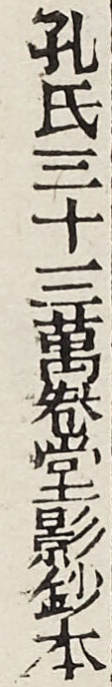孔氏三十三萬卷堂影鈔本
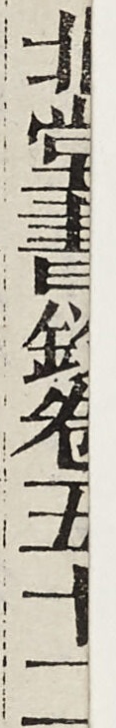北堂書鈔卷第五十二
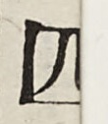四
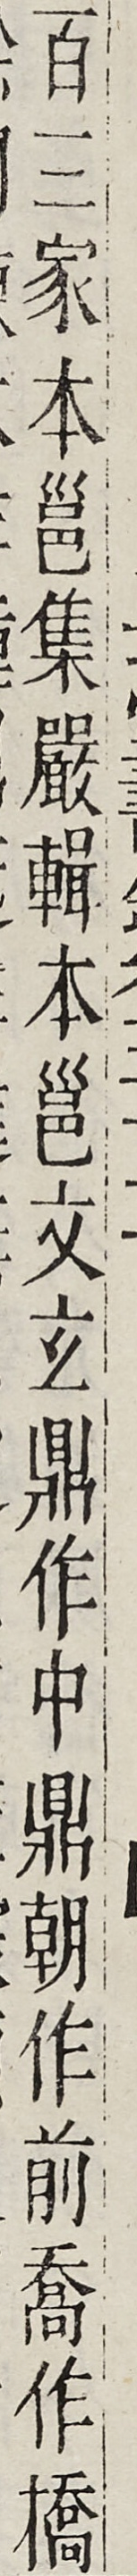百三家本邕集嚴輯本邕文玄鼎作中鼎朝作前喬作橋
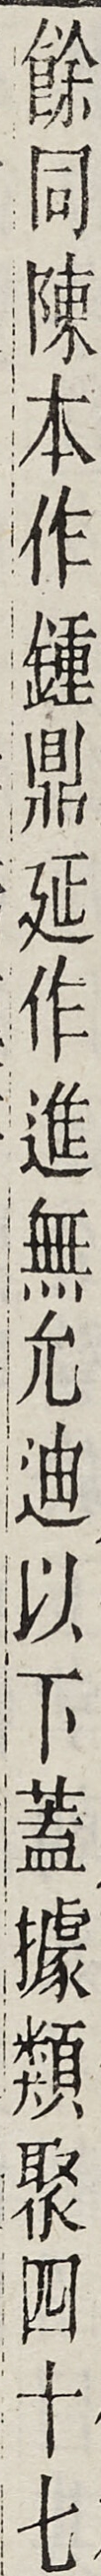餘同陳本作鍾鼎延作進無允迪以下蓋據類聚四十七
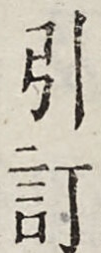引訂
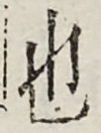也
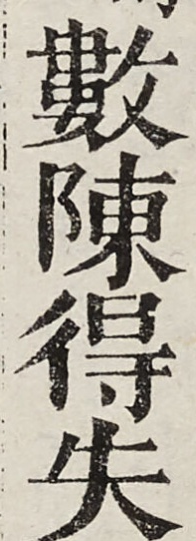數陳得失
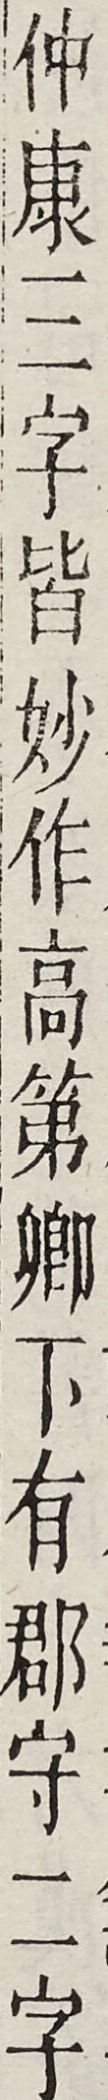仲康三字皆妙作高第卿下有郡守二字
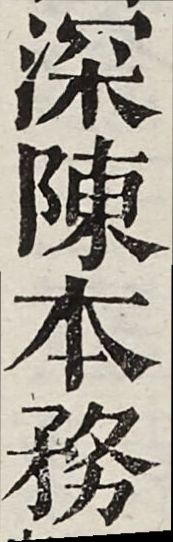深陳本務
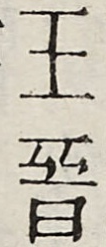王晉
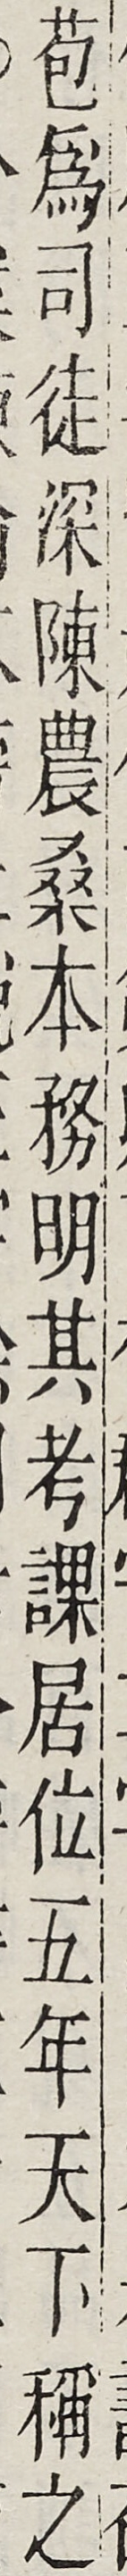苞為司徒深陳農桑本務明其考誤居位五年天下稱之
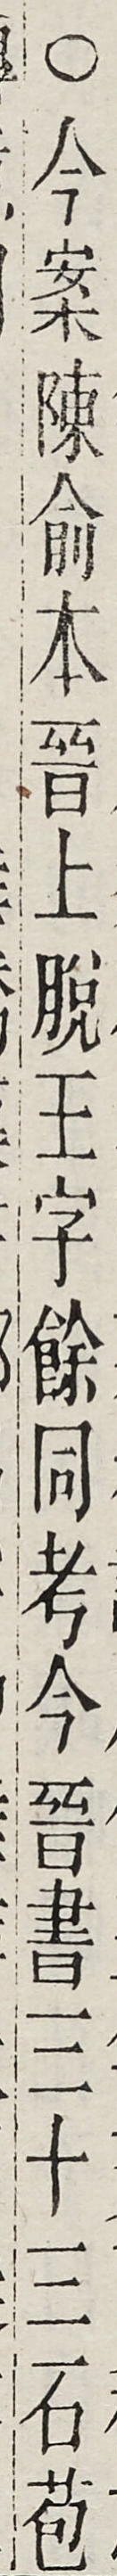○今案陳俞本晉上脫三字餘同考今晉書三十三石苞
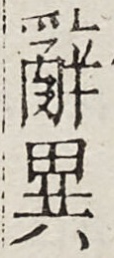辭異
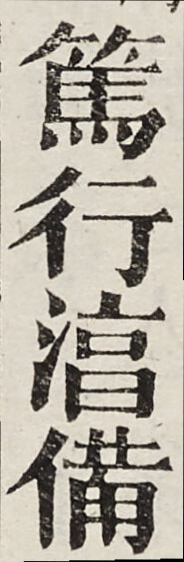篤行湻備
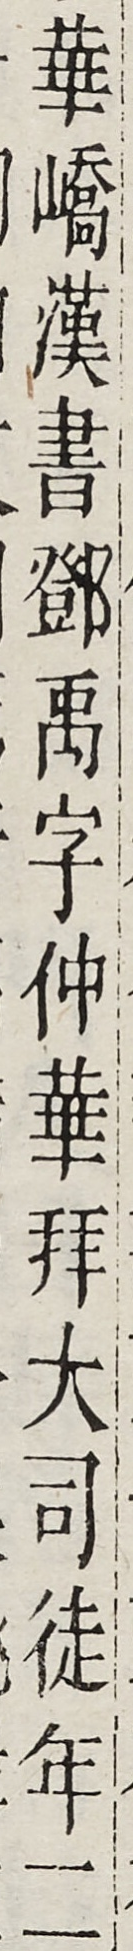華嶠漢書鄧禹字仲華拜大司徒年二
